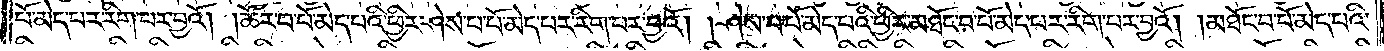པོ་མེད་པར་རིག་པར་བྱའོ། །ཚོར་བ་པོ་མེད་པའི་ཕྱིར་ཤེས་པ་པོ་མེད་པར་རིག་པར་བྱའོ། །ཤེས་པ་པོ་མེད་པའི་ཕྱིར་མཐོང་བ་པོ་མེད་པར་རིག་པར་བྱའོ། །མཐོང་བ་པོ་མེད་པའི་
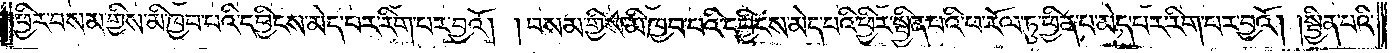ཕྱིར་བསམ་གྱིས་མི་ཁྱབ་པའི་དབྱིངས་མེད་པར་རིག་པར་བྱའོ། །བསམ་གྱིས་མི་ཁྱབ་པའི་དབྱིངས་མེད་པའི་ཕྱིར་སྦྱིན་པའི་ཕ་རོལ་ཏུ་ཕྱིན་པ་མེད་པར་རིག་པར་བྱའོ། །སྦྱིན་པའི་
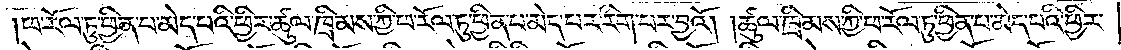ཕ་རོལ་ཏུ་ཕྱིན་པ་མེད་པའི་ཕྱིར་ཚུལ་ཁྲིམས་ཀྱི་ཕ་རོལ་ཏུ་ཕྱིན་པ་མེད་པར་རིག་པར་བྱའོ། །ཚུལ་ཁྲིམས་ཀྱི་ཕ་རོལ་ཏུ་ཕྱིན་པ་མེད་པའི་ཕྱིར་
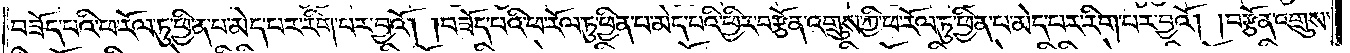བཟོད་པའི་ཕ་རོལ་ཏུ་ཕྱིན་པ་མེད་པར་རིག་པར་བྱའོ། །བཟོད་པའི་ཕ་རོལ་ཏུ་ཕྱིན་པ་མེད་པའི་ཕྱིར་བརྩོན་འགྲུས་ཀྱི་ཕ་རོལ་ཏུ་ཕྱིན་པ་མེད་པར་རིག་པར་བྱའོ། །བརྩོན་འགྲུས་
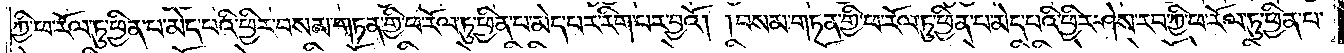ཀྱི་ཕ་རོལ་ཏུ་ཕྱིན་པ་མེད་པའི་ཕྱིར་བསམ་གཏན་གྱི་ཕ་རོལ་ཏུ་ཕྱིན་པ་མེད་པར་རིག་པར་བྱའོ། །བསམ་གཏན་གྱི་ཕ་རོལ་ཏུ་ཕྱིན་པ་མེད་པའི་ཕྱིར་ཤེས་རབ་ཀྱི་ཕ་རོལ་ཏུ་ཕྱིན་པ་
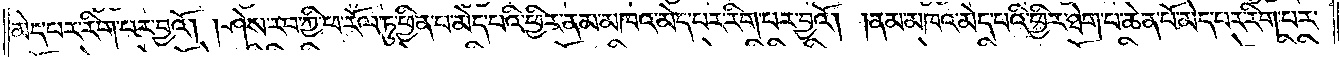མེད་པར་རིག་པར་བྱའོ། །ཤེས་རབ་ཀྱི་ཕ་རོལ་ཏུ་ཕྱིན་པ་མེད་པའི་ཕྱིར་ནམ་མཁའ་མེད་པར་རིག་པར་བྱའོ། །ནམ་མཁའ་མེད་པའི་ཕྱིར་ཐེག་པ་ཆེན་པོ་མེད་པར་རིག་པར་
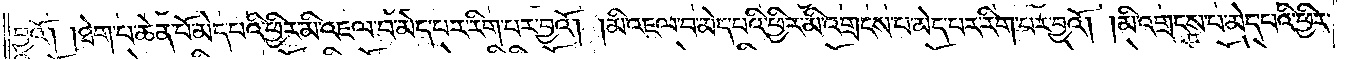བྱའོ། །ཐེག་པ་ཆེན་པོ་མེད་པའི་ཕྱིར་མི་འཇལ་བ་མེད་པར་རིག་པར་བྱའོ། །མི་འཇལ་བ་མེད་པའི་ཕྱིར་མི་འགྲངས་པ་མེད་པར་རིག་པར་བྱའོ། །མི་འགྲངས་པ་མེད་པའི་ཕྱིར་
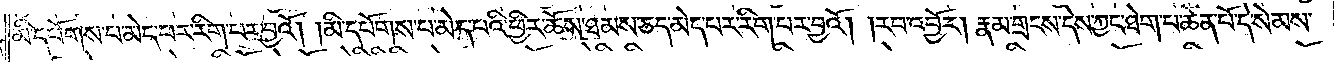མི་དཔོགས་པ་མེད་པར་རིག་པར་བྱའོ། །མི་དཔོགས་པ་མེད་པའི་ཕྱིར་ཆོས་ཐམས་ཅད་མེད་པར་རིག་པར་བྱའོ། །རབ་འབྱོར། རྣམ་གྲངས་དེས་ཀྱང་ཐེག་པ་ཆེན་པོ་དེ་སེམས་
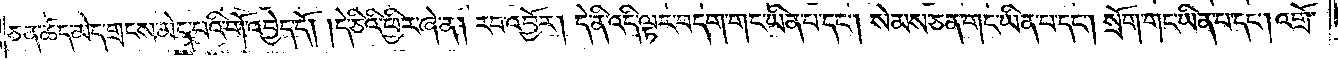ཅན་ཚད་མེད་གྲངས་མེད་པའི་གོ་འབྱེད་དོ། །དེ་ཅིའི་ཕྱིར་ཞེ་ན། རབ་འབྱོར། དེ་ནི་འདི་ལྟར་བདག་གང་ཡིན་པ་དང༌། སེམས་ཅན་གང་ཡིན་པ་དང༌། སྲོག་གང་ཡིན་པ་དང༌། འགྲོ་
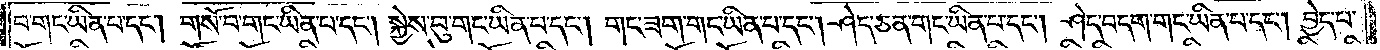བ་གང་ཡིན་པ་དང༌། གསོ་བ་གང་ཡིན་པ་དང༌། སྐྱེས་བུ་གང་ཡིན་པ་དང༌། གང་ཟག་གང་ཡིན་པ་དང༌། ཤེད་ཅན་གང་ཡིན་པ་དང༌། ཤེད་བདག་གང་ཡིན་པ་དང༌། བྱེད་པ་
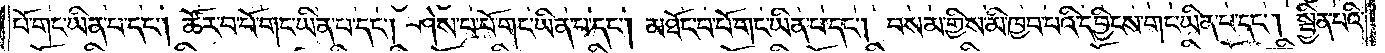པོ་གང་ཡིན་པ་དང༌། ཚོར་བ་པོ་གང་ཡིན་པ་དང༌། ཤེས་པ་པོ་གང་ཡིན་པ་དང༌། མཐོང་བ་པོ་གང་ཡིན་པ་དང༌། བསམ་གྱིས་མི་ཁྱབ་པའི་དབྱིངས་གང་ཡིན་པ་དང༌། སྦྱིན་པའི་
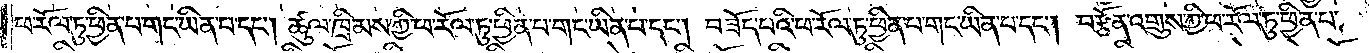ཕ་རོལ་ཏུ་ཕྱིན་པ་གང་ཡིན་པ་དང༌། ཚུལ་ཁྲིམས་ཀྱི་ཕ་རོལ་ཏུ་ཕྱིན་པ་གང་ཡིན་པ་དང༌། བཟོད་པའི་ཕ་རོལ་ཏུ་ཕྱིན་པ་གང་ཡིན་པ་དང༌། བརྩོན་འགྲུས་ཀྱི་ཕ་རོལ་ཏུ་ཕྱིན་པ་
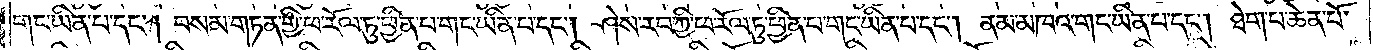གང་ཡིན་པ་དང༌། བསམ་གཏན་གྱི་ཕ་རོལ་ཏུ་ཕྱིན་པ་གང་ཡིན་པ་དང༌། ཤེས་རབ་ཀྱི་ཕ་རོལ་ཏུ་ཕྱིན་པ་གང་ཡིན་པ་དང༌། ནམ་མཁའ་གང་ཡིན་པ་དང༌། ཐེག་པ་ཆེན་པོ་
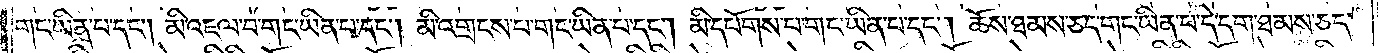གང་ཡིན་པ་དང༌། མི་འཇལ་བ་གང་ཡིན་པ་དང༌། མི་འགྲངས་པ་གང་ཡིན་པ་དང༌། མི་དཔོགས་པ་གང་ཡིན་པ་དང༌། ཆོས་ཐམས་ཅད་གང་ཡིན་པ་དེ་དག་ཐམས་ཅད་
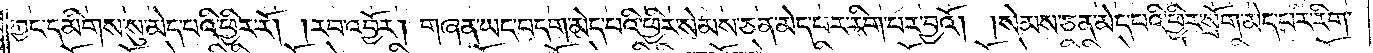ཀྱང་དམིགས་སུ་མེད་པའི་ཕྱིར་རོ། །རབ་འབྱོར། གཞན་ཡང་བདག་མེད་པའི་ཕྱིར་སེམས་ཅན་མེད་པར་རིག་པར་བྱའོ། །སེམས་ཅན་མེད་པའི་ཕྱིར་སྲོག་མེད་པར་རིག་
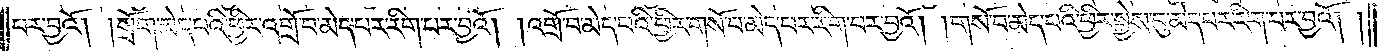པར་བྱའོ། །སྲོག་མེད་པའི་ཕྱིར་འགྲོ་བ་མེད་པར་རིག་པར་བྱའོ། །འགྲོ་བ་མེད་པའི་ཕྱིར་གསོ་བ་མེད་པར་རིག་པར་བྱའོ། །གསོ་བ་མེད་པའི་ཕྱིར་སྐྱེས་བུ་མེད་པར་རིག་པར་བྱའོ། །
